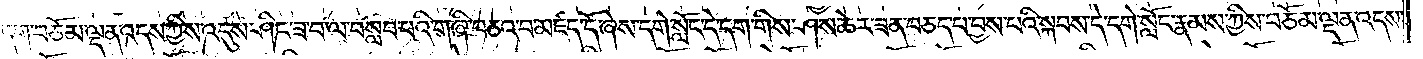དག་བཅོམ་ལྡན་འདས་ཀྱིས་འདུས་ཤིང་ཟ་བ་ལ་བསླབ་པའི་གཞི་བཅའ་བ་མཛད་དོ་ཞེས་དགེ་སློང་དེ་དག་གིས་ཤས་ཆེར་ཟན་བཅད་པ་བྱས་པའི་སྐབས་དེ་དགེ་སློང་རྣམས་ཀྱིས་བཅོམ་ལྡན་འདས་
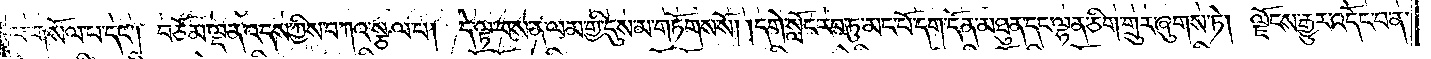ལ་གསོལ་པ་དང༌། བཅོམ་ལྡན་འདས་ཀྱིས་བཀའ་སྩལ་པ། དེ་ལྟ་བས་ན་ལམ་གྱི་དུས་མ་གཏོགས་སོ། །དགེ་སློང་རབ་ཏུ་མང་པོ་དག་དོན་མཐུན་དང་ལྷན་ཅིག་གྲུར་ཞུགས་ཏེ། ལྗོངས་རྒྱུར་འདོང་བ་ན་
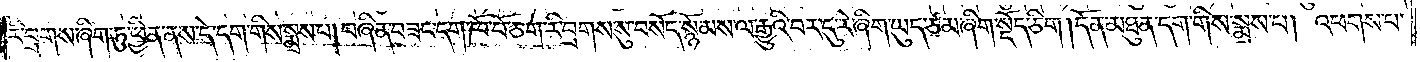རི་བྲགས་ཞིག་ཏུ་ཕྱིན་ནས་དེ་དག་གིས་སྨྲས་པ། བཞིན་བཟང་དག་ཁོ་བོ་ཅག་རི་བྲགས་སུ་བསོད་སྙོམས་ལ་རྒྱུའི་བར་དུ་རེ་ཞིག་ཡུད་ཙམ་ཞིག་སྡོད་ཅིག །དོན་མཐུན་དག་གིས་སྨྲས་པ། འཕགས་པ་
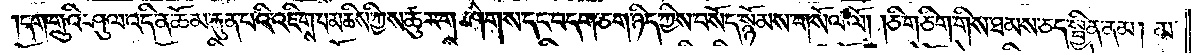དག་གྲུའི་ཤུལ་འདི་ན་ཆོམ་རྐུན་པའི་འཇིགས་པ་མཆིས་ཀྱིས་ཚུར་གཤེགས་དང་བདག་ཅག་ཉིད་ཀྱིས་བསོད་སྙོམས་གསོལ་ལོ། །ཅི་གཅིག་གིས་ཐམས་ཅད་སྦྱིན་ནམ། མ་
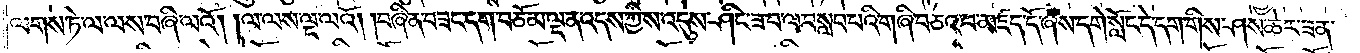ལགས་ཏེ་ལ་ལས་བཞི་ལའོ། །ལ་ལས་ལྔ་ལའོ། །བཞིན་བཟང་དག་བཅོམ་ལྡན་འདས་ཀྱིས་འདུས་ཤིང་ཟ་བ་ལ་བསླབ་པའི་གཞི་བཅའ་བ་མཛད་དོ་ཞེས་དགེ་སློང་དེ་དག་གིས་ཤས་ཆེར་ཟན་
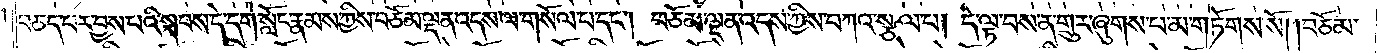བཅད་པར་བྱས་པའི་སྐབས་དེ་དགེ་སློང་རྣམས་ཀྱིས་བཅོམ་ལྡན་འདས་ལ་གསོལ་པ་དང༌། བཅོམ་ལྡན་འདས་ཀྱིས་བཀའ་སྩལ་པ། དེ་ལྟ་བས་ན་གྲུར་ཞུགས་པ་མ་གཏོགས་སོ༎བཅོམ་
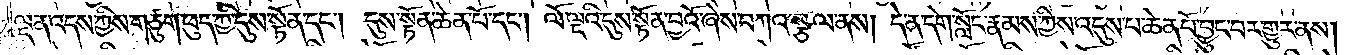ལྡན་འདས་ཀྱིས་གཙུག་ཕུད་ཀྱི་དུས་སྟོན་དང༌། དུས་སྟོན་ཆེན་པོ་དང༌། ལོ་ལྔའི་དུས་སྟོན་བྱའོ་ཞེས་བཀའ་སྩལ་ནས། དེ་ན་དགེ་སློང་རྣམས་ཀྱིས་འདུས་པ་ཆེན་པོ་བྱུང་བར་གྱུར་ནས།
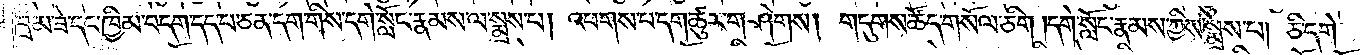བྲམ་ཟེ་དང་ཁྱིམ་བདག་དད་པ་ཅན་དག་གིས་དགེ་སློང་རྣམས་ལ་སྨྲས་པ། འཕགས་པ་དག་ཚུར་གཤེགས། གདུགས་ཚོད་གསོལ་ཅིག །དགེ་སློང་རྣམས་ཀྱིས་སྨྲས་པ། ཅི་དགེ་
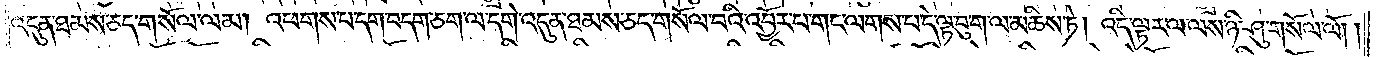འདུན་ཐམས་ཅད་གསོལ་ལམ། འཕགས་པ་དག་བདག་ཅག་ལ་དགེ་འདུན་ཐམས་ཅད་གསོལ་བའི་འབྱོར་པ་གང་ལགས་པ་དེ་ལྟ་བུ་ག་ལ་མཆིས་ཏེ། འདི་ལྟར་ལ་ལས་ཉི་ཤུ་གསོལ་ལོ། །
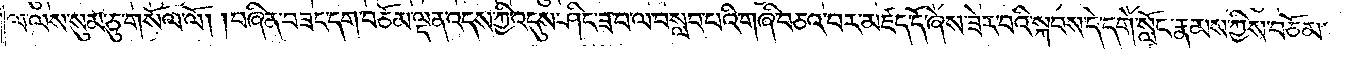ལ་ལས་སུམ་ཅུ་གསོལ་ལོ། །བཞིན་བཟང་དག་བཅོམ་ལྡན་འདས་ཀྱི་འདུས་ཤིང་ཟ་བ་ལ་བསླབ་པའི་གཞི་བཅའ་བར་མཛད་དོ་ཞེས་ཟེར་བའི་སྐབས་དེ་དགེ་སློང་རྣམས་ཀྱིས་བཅོམ་
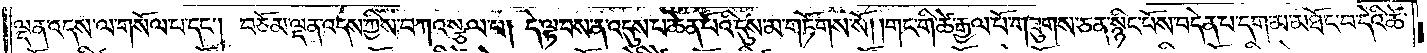ལྡན་འདས་ལ་གསོལ་པ་དང༌། བཅོམ་ལྡན་འདས་ཀྱིས་བཀའ་སྩལ་པ། དེ་ལྟ་བས་ན་འདུས་པ་ཆེན་པོའི་དུས་མ་གཏོགས་སོ། །གང་གི་ཚེ་རྒྱལ་པོ་གཟུགས་ཅན་སྙིང་པོས་བདེན་པ་དག་མ་མཐོང་བ་དེའི་ཚེ་
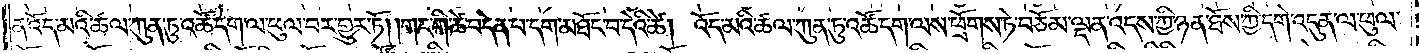ན་འོད་མའི་ཚལ་ཀུན་ཏུ་འཚོ་དག་ལ་ཕུལ་བར་གྱུར་ཏོ། །གང་གི་ཚེ་བདེན་པ་དག་མཐོང་བ་དེའི་ཚེ། འོད་མའི་ཚལ་ཀུན་ཏུ་འཚོ་དག་ལས་ཕྲོགས་ཏེ་བཅོམ་ལྡན་འདས་ཀྱི་ཉན་ཐོས་ཀྱི་དགེ་འདུན་ལ་ཕུལ་
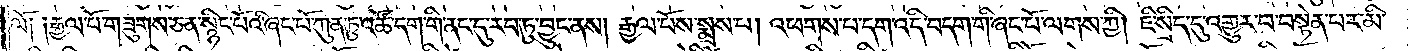ལོ༑ ༑རྒྱལ་པོ་གཟུགས་ཅན་སྙིང་པོའི་ཞང་པོ་ཀུན་ཏུ་འཚོ་དག་གི་ནང་དུ་རབ་ཏུ་བྱུང་ནས། རྒྱལ་པོས་སྨྲས་པ། འཕགས་པ་དག་འདི་བདག་གི་ཞང་པོ་ལགས་ཀྱི། ཇི་སྲིད་དུ་འགྱུར་བ་བསྟེན་པར་མི་
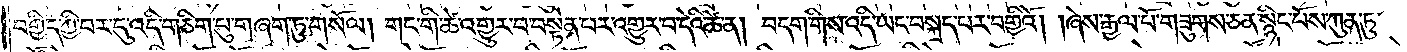བགྱིད་ཀྱི་བར་དུ་འདི་གཅིག་པུ་གཞག་ཏུ་གསོལ། གང་གི་ཚེ་འགྱུར་བ་བསྟེན་པར་འགྱུར་བ་དེའི་ཚེ་ན། བདག་གིས་འདི་ཡང་བསྐྲད་པར་བགྱིའོ། །ཞེས་རྒྱལ་པོ་གཟུགས་ཅན་སྙིང་པོས་ཀུན་ཏུ་
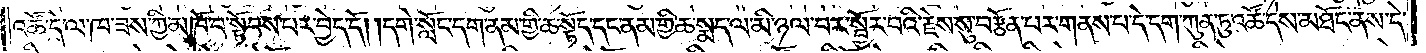འཚོ་དེ་ལ་ཁ་ཟས་ཀྱི་མཁོ་བ་སྟོབས་པར་བྱེད་དོ། །དགེ་སློང་དག་ནམ་གྱི་ཆ་སྟོད་དང་ནམ་གྱི་ཆ་སྨད་ལ་མི་ཉལ་བར་སྦྱོར་བའི་རྗེས་སུ་བརྩོན་པར་གནས་པ་དེ་དག་ཀུན་ཏུ་འཚོ་དེས་མཐོང་ནས་དེ་
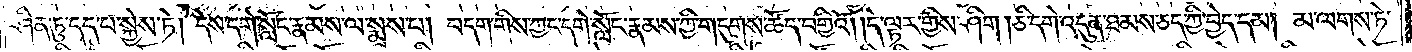ཤིན་ཏུ་དད་པ་སྐྱེས་ཏེ། དེས་དགེ་སློང་རྣམས་ལ་སྨྲས་པ། བདག་གིས་ཀྱང་དགེ་སློང་རྣམས་ཀྱི་གདུགས་ཚོད་བགྱིའོ། །དེ་ལྟར་གྱིས་ཤིག །ཅི་དགེ་འདུན་ཐམས་ཅད་ཀྱི་བྱེད་དམ། མ་ལགས་ཏེ་
